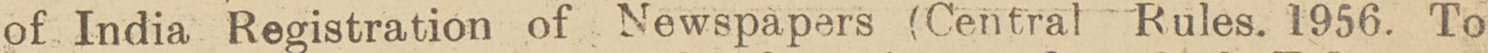of India Registration of Newspapers (Central Rules. 1956. To
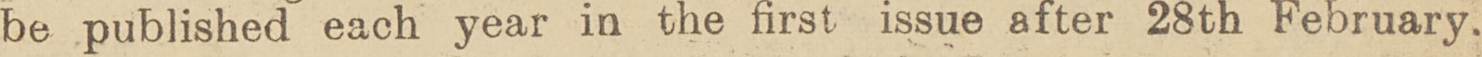be published each year in the first issue after 28th February.
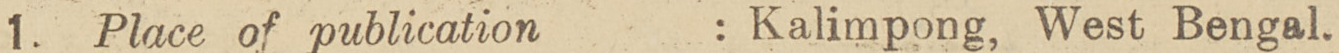1. Place of publication : Kalimpong, West Bengal.
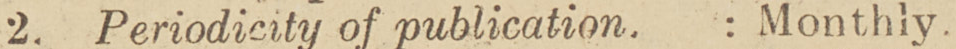2. Periodicity of publication. :Monthly.
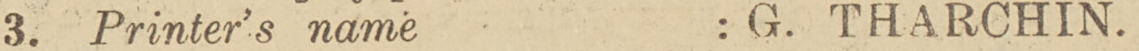3. Printer's name : G. THARCHIN
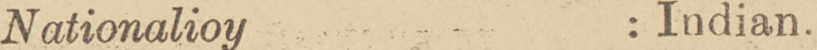Nationalioy : Indian.
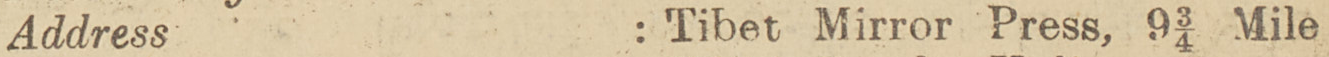Address : Tibet MIrror Press, 9¾ Mile
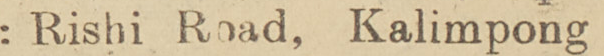: Rishi Road, Kalimpong
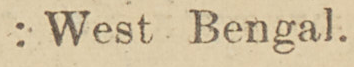: West Bengal.
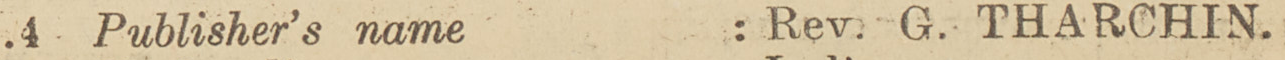.4 Publisher's name : Rev. G. THARCHIN.
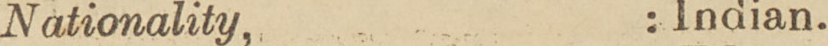Nationality, : Indian.
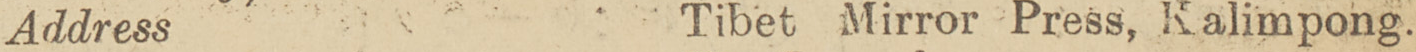Address Tibet Mirror Press, Kalimpong.
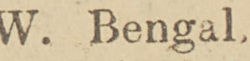W. Bengal.
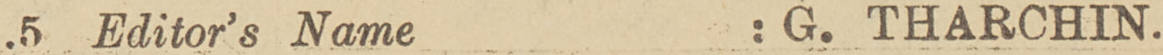.5 Editor's Name : G. THARCHIN
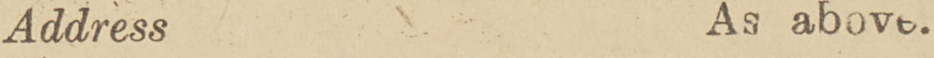Addess As above
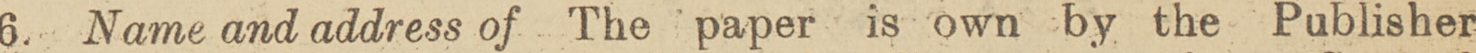6. Name and address of The paper is own by the Publisher
